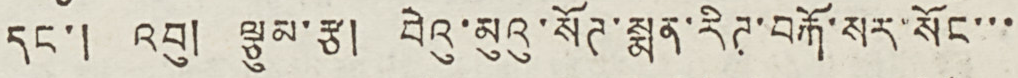དང་། འབུ། ལྕུམ་རྩ། བེའུ་མུའུ་སོཊ་སྨན་རིཊ་བརྐོ་སར་སོང་་་
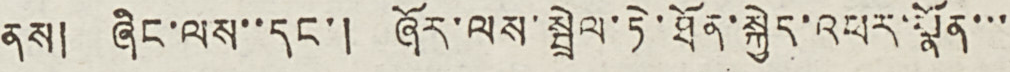ནས། ཞིང་ལས་་དང་། ཞོར་ལས་སྦྲེལ་ཏེ་ཐོན་སྐྱེད་འཕར་སྣོན་་་
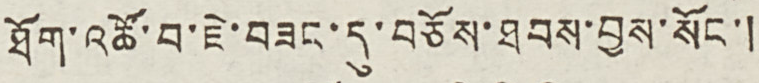ཐོག་འཚོ་བ་ཇེ་བཟང་དུ་བཅོས་ཐབས་བྱས་སོང་།
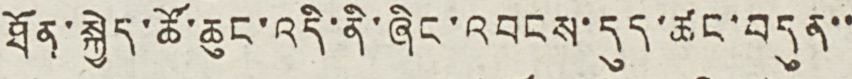ཐོན་སྐྱེད་ཚོ་ཆུང་འདི་ནི་ཞིང་འབངས་དུད་ཚང་བདུན་་
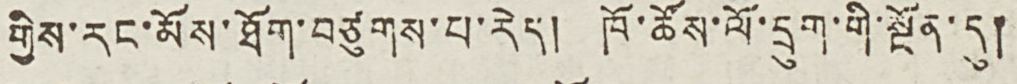གྱིས་རང་མོས་ཐོག་བཙུགས་པ་རེད། ཁོ་ཚོས་ལོ་དྲུག་གི་སྔོན་དུ།
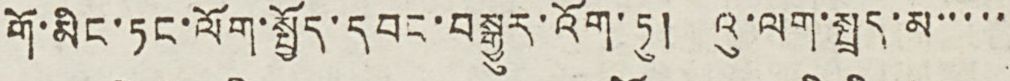གོ་མིང་ཏང་ལོག་སྤྱོད་དབང་བསྒྱུར་འོག་ཏུ། འུ་ལག་སྤྲད་མ་་་་་
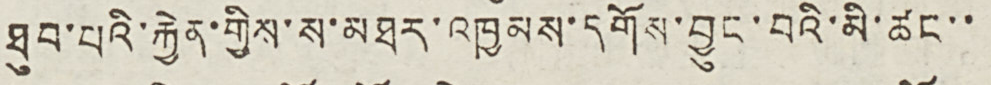ཐུབ་པའི་རྐྱེན་གྱིས་ས་མཐར་འཁྱམས་དགོས་བྱུང་བའི་མི་ཚང་་
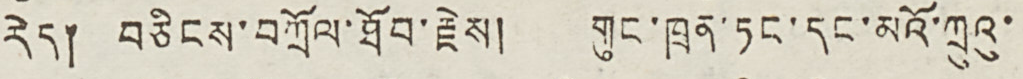རེད། བཅིངས་བཀྲོལ་ཐོབ་རྗེས། གུང་ཁྲན་ཏང་དང་མའོ་ཀྲུའུ་
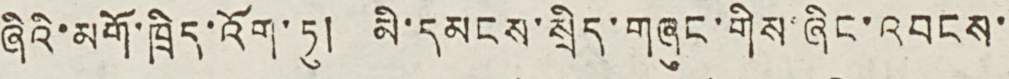ཞིའི་མགོ་ཁྲིད་འོག་ཏུ། མི་དམངས་སྲིད་གཞུང་གིས་ཞིང་འབངས་
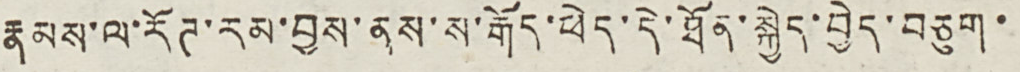རྣམས་ལ་རོཊ་རམ་བྱས་ནས་ས་རྒོད་ཕེད་དེ་ཐོན་སྐྱེད་བྱེད་བཅུག་
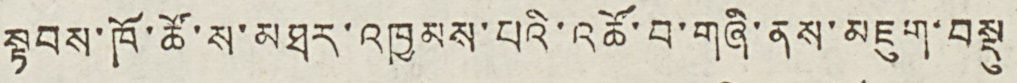སྟབས་ཁོ་ཚོ་ས་མཐར་འཁྱམས་པའི་འཚོ་བ་གཞི་ནས་མཇུག་བསྡུ
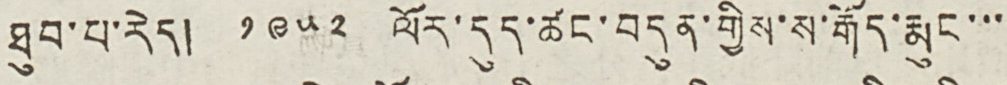ཐུབ་པ་རེད། ༡༩༤༢ ལོར་དུད་ཚང་བདུན་གྱིས་ས་རྒོད་རྨུང་་་
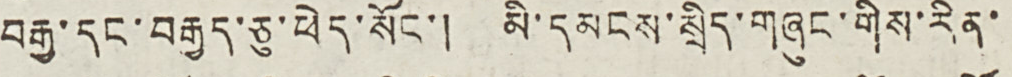བརྒྱ་དང་བརྒྱད་ཅུ་ཕེད་སོང་། མི་དམངས་སྲིད་གཞུང་གིས་རིན་
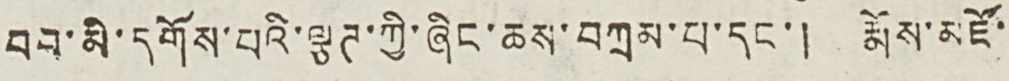བབ་མི་དགོས་པའི་ལྕཊ་ཀྱི་ཞིང་ཆས་བཀྲམ་པ་དང་། རྨོས་མཛོ་
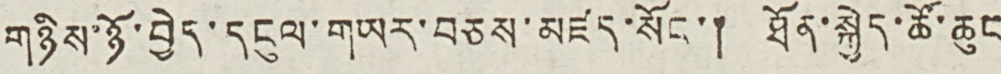གཉིས་ཉོ་བྱེད་དངུལ་གཡར་བཅས་མཛད་སོང་། ཐོན་སྐྱེད་ཚོ་ཆུང
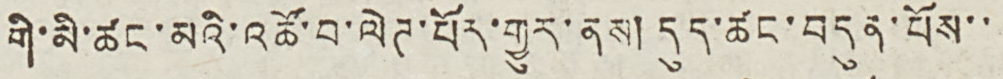གི་མི་ཚང་མའི་འཚོ་བ་ལེཊ་པོར་གྱུར་ནས། དུད་ཚང་བདུན་པོས་་
